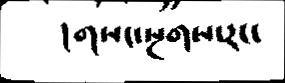།གསང་སྔགས་རང་
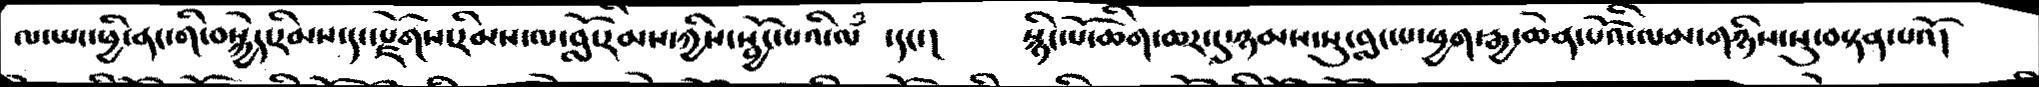ལ་ཡང་ཕྱི་ནང་གི་བསྐྱེད་རིམས་དང་རྫོགས་རིམས་ལ་བློ་རིམས་ཀྱིས་སྦྱོང་པའི་ལཾ་དང་།   སྙིང་པོ་ཆིག་ཆར་དུ་ཉམས་སུ་བླང་པ་ཕྱ་རྒྱ་ཆེན་པོའི་ལམ་གཉིས་སུ་བསྟན་པའོ།
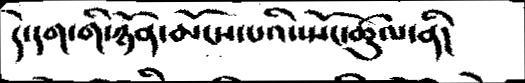དེ་དག་གི་ཉོན་མོངས་པའི་སྤོང་ཚུལ་ནི།
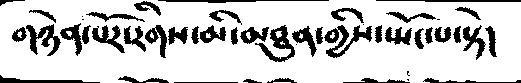གཉེན་པོར་རིགས་མི་མཐུན་གྱིས་སྤོང་པ་སྟེ།
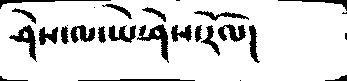ཤེས་ལ་ཡེ་ཤེས་རོལ།
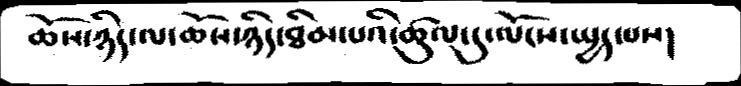ཆོས་ཉིད་ལ་ཆོས་ཉིད་ཐིམ་པའི་ཚུལ་དུ་ལོངས་སྤྱད་པས།
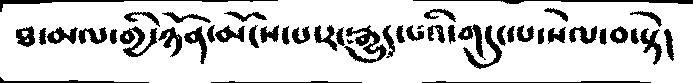ཐ་མལ་གྱི་ཉོན་མོངས་པ་རང་རྒྱུད་པའི་གདུང་པ་སེལ་བ་སྟེ།
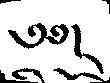༄༅།
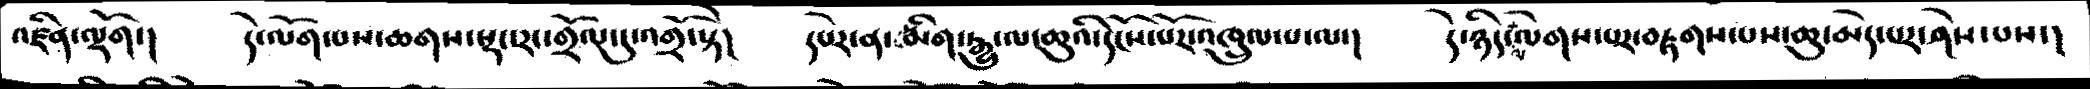འཛིན་ལྡོག་།   དེ་ལོག་པས་ཆགས་སྡང་རང་གྲོལ་དུ་འགྲོ་སྟེ།   དཔེར་ན་མིག་རྒྱུ་ལ་ཆུའི་དངོས་པོར་འཁྲུལ་པ་ལ་།   དེ་ཉིད་ལ་ལེགས་པར་བརྟགས་པས་ཆུ་མེད་པར་ཤེས་པས་།
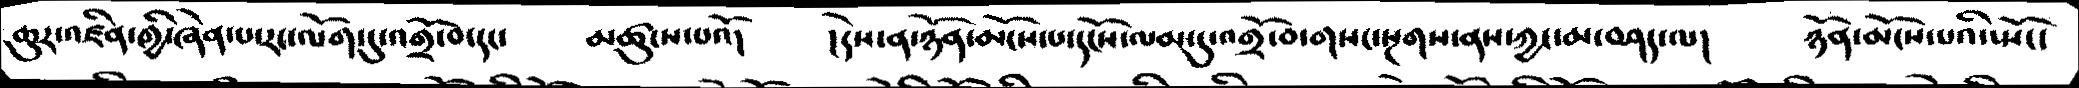ཆུར་འཛིན་གྱི་ཞེན་པ་རང་ལོག་དུ་འགྲོ་བ་དང་   མཚུངས་པའོ།   །དེས་ན་ཉོན་མོངས་པ་དངོས་ལམ་དུ་འགྲོ་བ་གསང་སྔགས་ནས་ཀྱང་མ་བཤད་ལ།   ཉོན་མོངས་པའི་སྤོང་
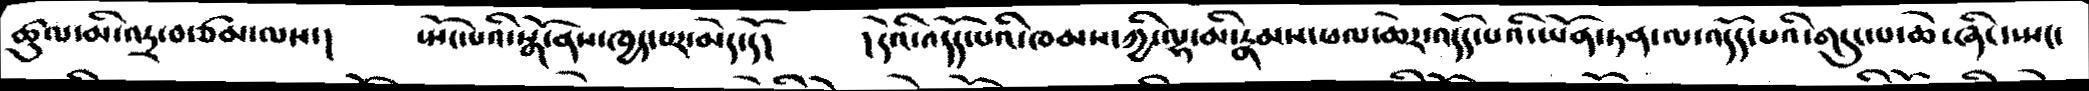ཚུལ་མི་འདྲ་བ་ཙམ་ལས་།   སྤོང་པའི་སྒོ་ནས་ཁྱད་པར་མེད་དོ།   །དེའི་འདོད་པའི་ཁམས་ཀྱི་ལྷ་མི་རྣམས་ཕལ་ཆེར་འདོད་པའི་ཡོན་ཏན་ལ་འདོད་པའི་གདུང་པ་ཆེ་ཞིང་སྤང་
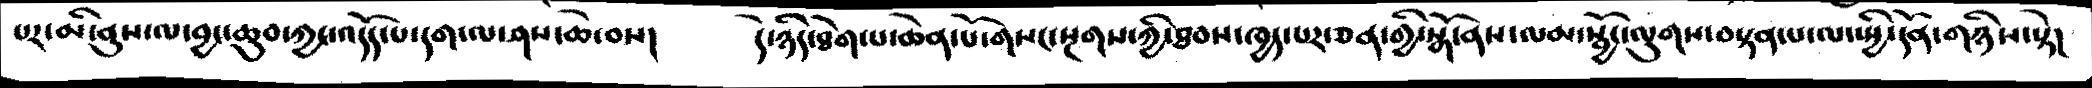པར་མི་ནུས་ལ་བྱང་ཆུབ་ཀྱང་འདོད་པ་དག་ལ་ཤས་ཆེ་བས།   དེ་ཉིད་ཐེག་པ་ཆེན་པོ་གསང་སྔགས་ཀྱི་ཐབས་ཁྱད་པར་ཅན་གྱི་སྒོ་ནས་ལམ་སྦྱོང་ལུགས་བསྟན་པ་ལ་སྤྱི་དོན་གཉིས་སྟེ།
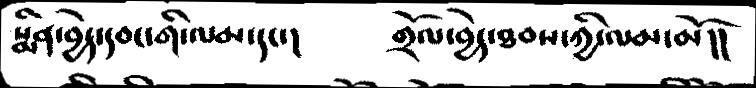སྨིན་བྱེད་དབང་གི་ལམ་དང་།   གྲོལ་བྱེད་ཐབས་ཀྱི་ལམ་མོ།།
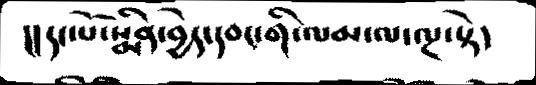།།དང་པོ་སྨིན་བྱེད་དབང་གི་ལམ་ལ་ལྔ་སྟེ།
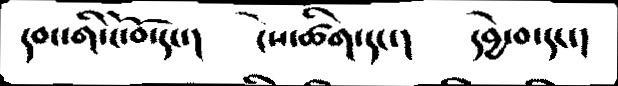དབང་གི་ངོ་བོ་དང་།    ངེས་ཚིག་དང་།   དབྱེ་བ་དང་།
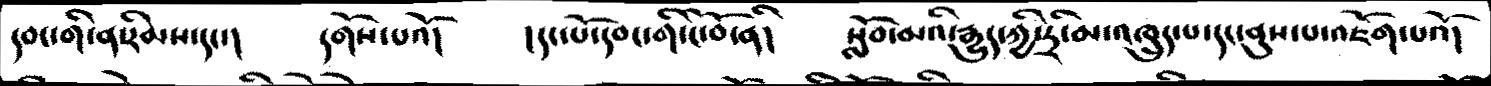དབང་གི་ན་རིམས་དང་།   དགོས་པའོ།   །དང་པོ་དབང་གི་ངོ་བོ་ནི།   སློབ་མའི་རྒྱུད་ཀྱི་དྲི་མ་འཁྲུད་པ་དང་ནུས་པ་འཇོག་པའོ།
